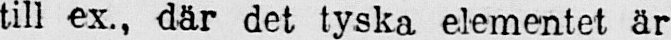till ex., där det tyska elementet är
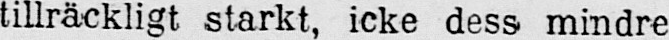tillräckligt starkt, icke dess mindre
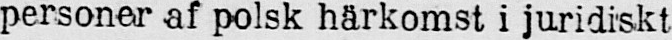personer af polsk härkomst i juridiskt
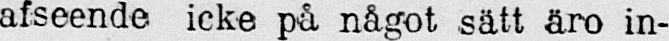afseende icke på något sätt äro in-
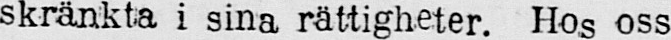skränkta i sina rättigheter. Hos oss
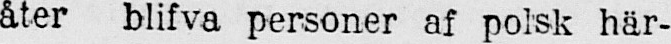åter blifva personer af polsk här-
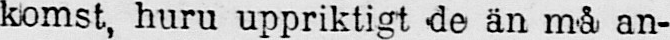komst, huru uppriktigt de än må an-
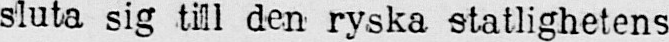sluta sig till den ryska statlighetens
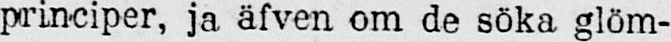principer, ja äfven om de söka glöm-
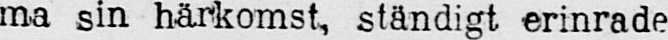ma sin härkomst, ständigt erinrade
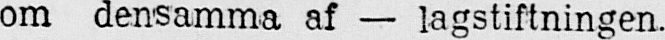om densamma af — lagstiftningen.
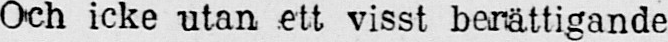Och icke utan ett visst berättigande
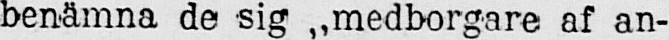benämna de sig „medborgare af an-
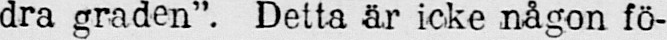dra graden”. Detta är icke någon fö-
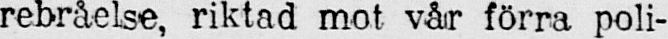rebråelse, riktad mot vår förra poli-
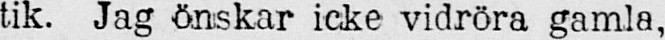tik. Jag önskar icke vidröra gamla,
